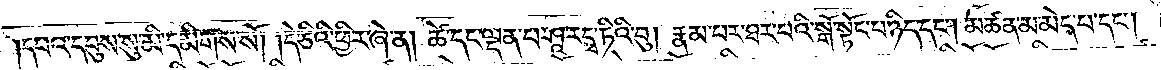དཔའ་དབུས་སུ་མི་དམིགས་སོ། །དེ་ཅིའི་ཕྱིར་ཞེ་ན། ཚེ་དང་ལྡན་པ་ཤཱ་རདྭ་ཏིའི་བུ། རྣམ་པར་ཐར་པའི་སྒོ་སྟོང་པ་ཉིད་དང༌། མཚན་མ་མེད་པ་དང༌།
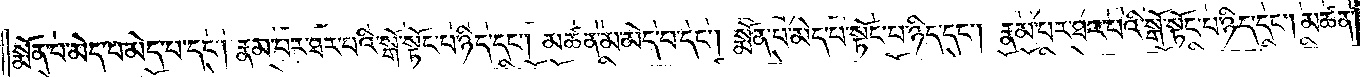སྨོན་པ་མེད་པ་མེད་པ་དང༌། རྣམ་པར་ཐར་པའི་སྒོ་སྟོང་པ་ཉིད་དང༌། མཚན་མ་མེད་པ་དང༌། སྨོན་པ་མེད་པ་སྟོང་པ་ཉིད་དང༌། རྣམ་པར་ཐར་པའི་སྒོ་སྟོང་པ་ཉིད་དང༌། མཚན་
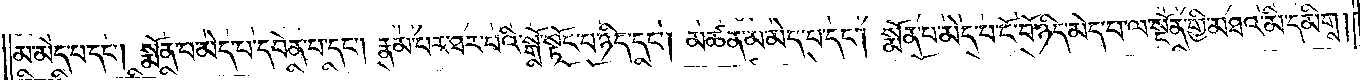མ་མེད་པ་དང༌། སྨོན་པ་མེད་པ་དབེན་པ་དང༌། རྣམ་པར་ཐར་པའི་སྒོ་སྟོང་པ་ཉིད་དང༌། མཚན་མ་མེད་པ་དང༌། སྨོན་པ་མེད་པ་ངོ་བོ་ཉིད་མེད་པ་ལ་སྔོན་གྱི་མཐའ་མི་དམིགས།
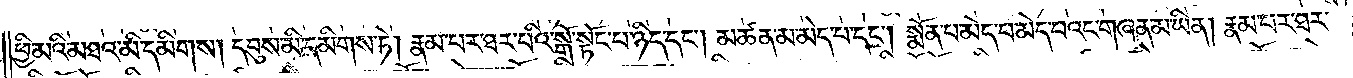ཕྱི་མའི་མཐའ་མི་དམིགས། དབུས་སུ་དམིགས་ཏེ། རྣམ་པར་ཐར་པའི་སྒོ་སྟོང་པ་ཉིད་དང༌། མཚན་མ་མེད་པ་དང༌། སྨོན་པ་མེད་པ་མེད་པའང་གཞན་མ་ཡིན། རྣམ་པར་ཐར་
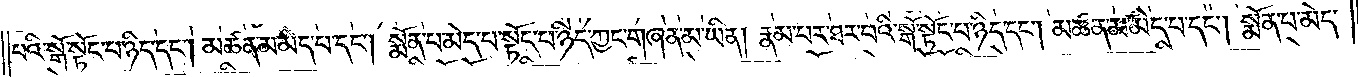པའི་སྒོ་སྟོང་པ་ཉིད་དང༌། མཚན་མ་མེད་པ་དང༌། སྨོན་པ་མེད་པ་སྟོང་པ་ཉིད་ཀྱང་གཞན་མ་ཡིན། རྣམ་པར་ཐར་པའི་སྒོ་སྟོང་པ་ཉིད་དང༌། མཚན་མ་མེད་པ་དང༌། སྨོན་པ་མེད་
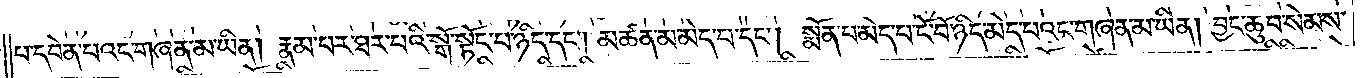པ་དབེན་པའང་གཞན་མ་ཡིན། རྣམ་པར་ཐར་པའི་སྒོ་སྟོང་པ་ཉིད་དང༌། མཚན་མ་མེད་པ་དང༌། སྨོན་པ་མེད་པ་ངོ་བོ་ཉིད་མེད་པའང་གཞན་མ་ཡིན། བྱང་ཆུབ་སེམས་
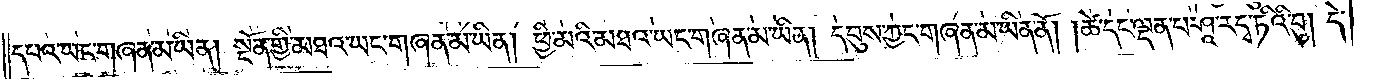དཔའ་ཡང་གཞན་མ་ཡིན། སྔོན་གྱི་མཐའ་ཡང་གཞན་མ་ཡིན། ཕྱི་མའི་མཐའ་ཡང་གཞན་མ་ཡིན། དབུས་ཀྱང་གཞན་མ་ཡིན་ནོ། །ཚེ་དང་ལྡན་པ་ཤཱ་རདྭ་ཏིའི་བུ། དེ་
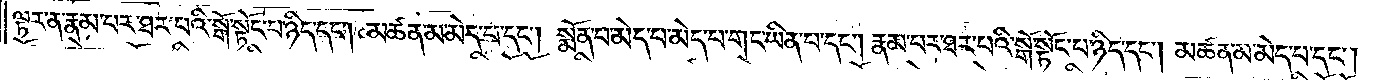ལྟར་ན་རྣམ་པར་ཐར་པའི་སྒོ་སྟོང་པ་ཉིད་དང༌། མཚན་མ་མེད་པ་དང༌། སྨོན་པ་མེད་པ་མེད་པ་གང་ཡིན་པ་དང༌། རྣམ་པར་ཐར་པའི་སྒོ་སྟོང་པ་ཉིད་དང༌། མཚན་མ་མེད་པ་དང༌།
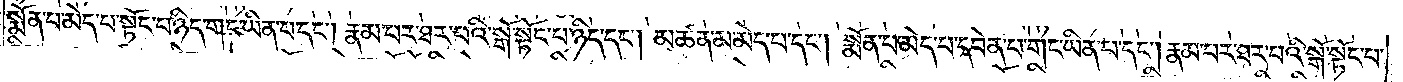སྨོན་པ་མེད་པ་སྟོང་པ་ཉིད་གང་ཡིན་པ་དང༌། རྣམ་པར་ཐར་པའི་སྒོ་སྟོང་པ་ཉིད་དང༌། མཚན་མ་མེད་པ་དང༌། སྨོན་པ་མེད་པ་དབེན་པ་གང་ཡིན་པ་དང༌། རྣམ་པར་ཐར་པའི་སྒོ་སྟོང་པ་
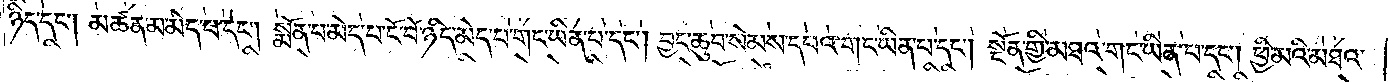ཉིད་དང༌། མཚན་མ་མེད་པ་དང༌། སྨོན་པ་མེད་པ་ངོ་བོ་ཉིད་མེད་པ་གང་ཡིན་པ་དང༌། བྱང་ཆུབ་སེམས་དཔའ་གང་ཡིན་པ་དང༌། སྔོན་གྱི་མཐའ་གང་ཡིན་པ་དང༌། ཕྱི་མའི་མཐའ་
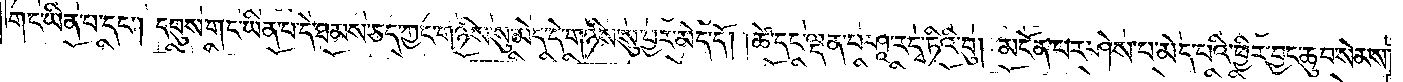གང་ཡིན་པ་དང༌། དབུས་གང་ཡིན་པ་དེ་ཐམས་ཅད་ཀྱང་གཉིས་སུ་མེད་དེ་གཉིས་སུ་བྱར་མེད་དོ། །ཚེ་དང་ལྡན་པ་ཤཱ་རདྭ་ཏིའི་བུ། མངོན་པར་ཤེས་པ་མེད་པའི་ཕྱིར་བྱང་ཆུབ་སེམས་
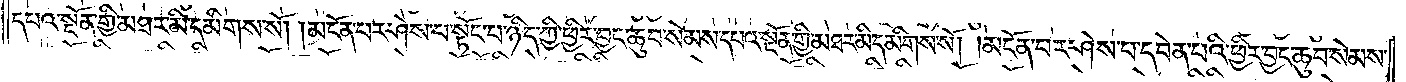དཔའ་སྔོན་གྱི་མཐར་མི་དམིགས་སོ། །མངོན་པར་ཤེས་པ་སྟོང་པ་ཉིད་ཀྱི་ཕྱིར་བྱང་ཆུབ་སེམས་དཔའ་སྔོན་གྱི་མཐར་མི་དམིགས་སོ། །མངོན་པར་ཤེས་པ་དབེན་པའི་ཕྱིར་བྱང་ཆུབ་སེམས་
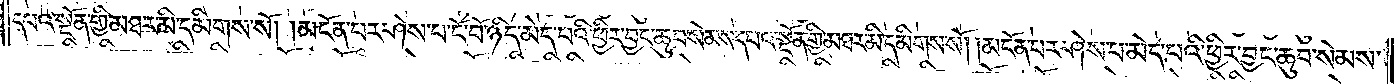དཔའ་སྔོན་གྱི་མཐར་མི་དམིགས་སོ། །མངོན་པར་ཤེས་པ་ངོ་བོ་ཉིད་མེད་པའི་ཕྱིར་བྱང་ཆུབ་སེམས་དཔའ་སྔོན་གྱི་མཐར་མི་དམིགས་སོ། །མངོན་པར་ཤེས་པ་མེད་པའི་ཕྱིར་བྱང་ཆུབ་སེམས་
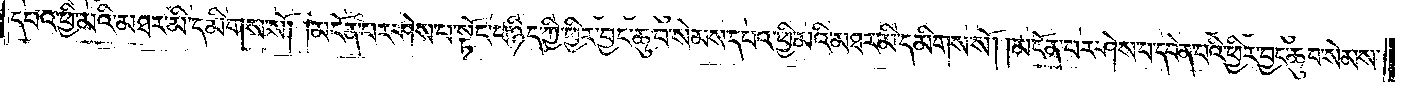དཔའ་ཕྱི་མའི་མཐར་མི་དམིགས་སོ། །མངོན་པར་ཤེས་པ་སྟོང་པ་ཉིད་ཀྱི་ཕྱིར་བྱང་ཆུབ་སེམས་དཔའ་ཕྱི་མའི་མཐར་མི་དམིགས་སོ། །མངོན་པར་ཤེས་པ་དབེན་པའི་ཕྱིར་བྱང་ཆུབ་སེམས་
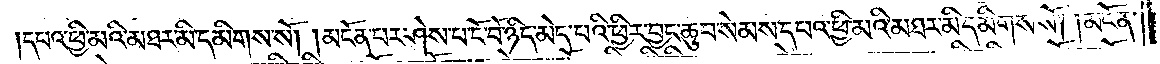དཔའ་ཕྱི་མའི་མཐར་མི་དམིགས་སོ། །མངོན་པར་ཤེས་པ་ངོ་བོ་ཉིད་མེད་པའི་ཕྱིར་བྱང་ཆུབ་སེམས་དཔའ་ཕྱི་མའི་མཐར་མི་དམིགས་སོ། །མངོན་
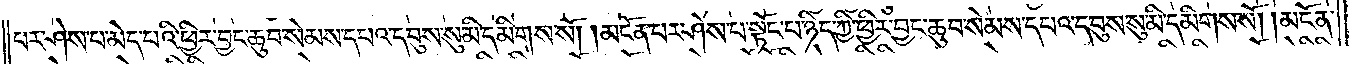པར་ཤེས་པ་མེད་པའི་ཕྱིར་བྱང་ཆུབ་སེམས་དཔའ་དབུས་སུ་མི་དམིགས་སོ། །མངོན་པར་ཤེས་པ་སྟོང་པ་ཉིད་ཀྱི་ཕྱིར་བྱང་ཆུབ་སེམས་དཔའ་དབུས་སུ་མི་དམིགས་སོ། །མངོན་
